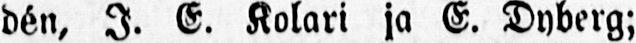dén, I. E. Kolari ja E. Dyberg;
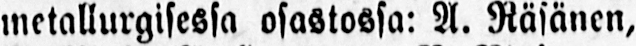metallurgisessa osastossa: A. Räsänen,
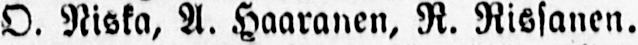O. Niska, A. Haaranen, R. Rissanen.
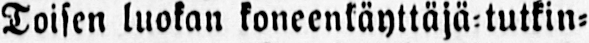Toisen luokan koneenkäyttäjä-tutkin-
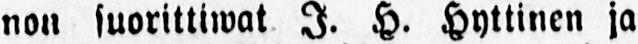non suorittiwat I. H. Hyttinen ja
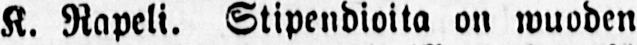K. Rapeli. Stipendioita on wuoden
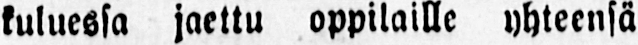kuluessa jaettu oppilaille yhteensä
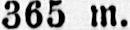365 m.
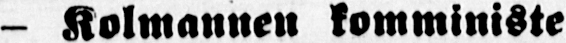- Kolmannen komministe-
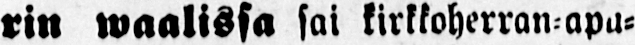rin waalissa sai kirkkoherran-apu-
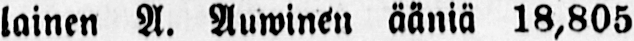lainen A. Auwinen ääniä 18,805
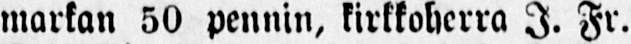markan 50 pennin, kirkkoherra I. Fr.
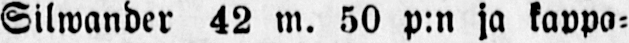Silwander 42 m. 50 p:n ja kappa-
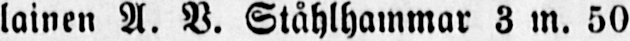lainen A. W. Ståhlhammar 3 w. 50
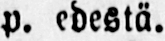p. edestä.
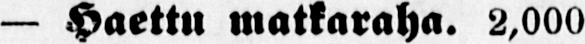— Haettu matkaraha. 2,000
